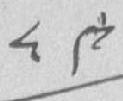༨༩
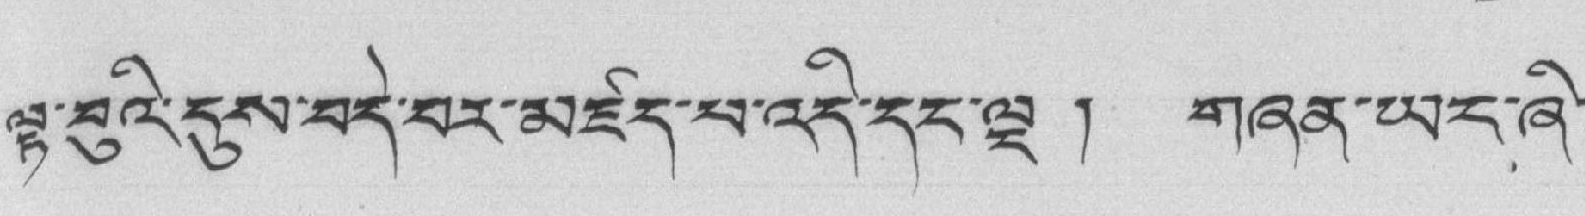ལྟ་བུའི་དུས་བདེ་བར་མཛད་པ་འདི་དང་ལྔ ། གཞན་ཡང་ཞི་
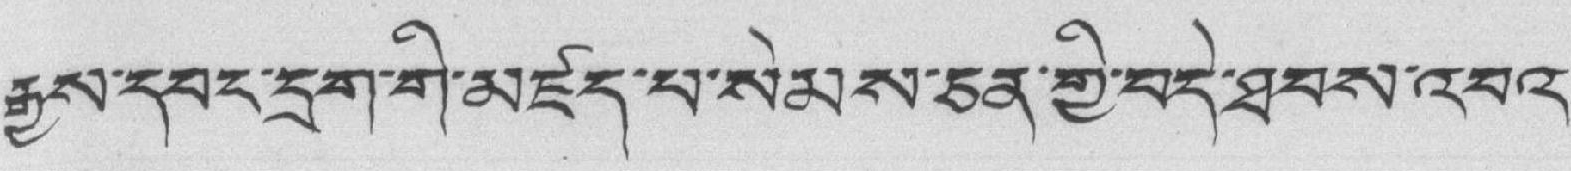རྒྱས་དབང་དྲག་གི་མཛད་པ་སེམས་ཅན་གྱི་བདེ་ཐབས་འབའ་
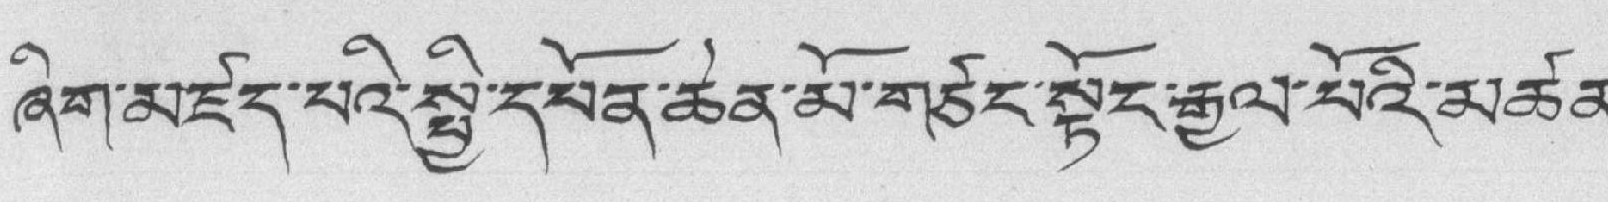ཞིག་མཛད་པའི་སྤྱི་དཔོན་ཆེན་མོ་གཙང་སྟོང་རྒྱལ་པོའི་མཚན་
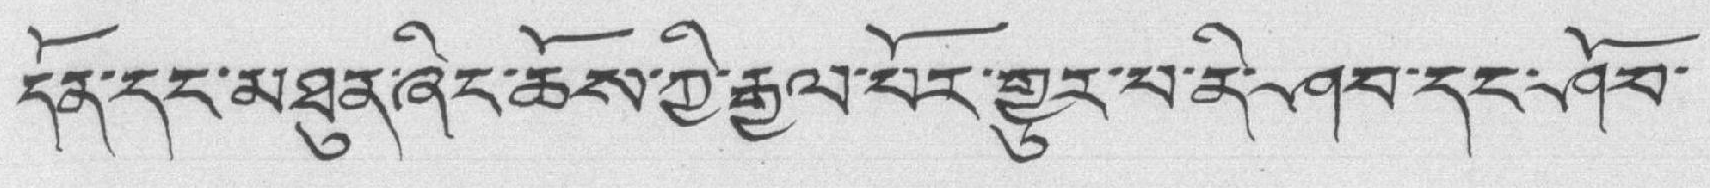དོན་དང་མཐུན་ཞིང་ཆོས་ཀྱི་རྒྱལ་པོར་གྱུར་བ་ནི་ཤབ་དང་ཤོབ་
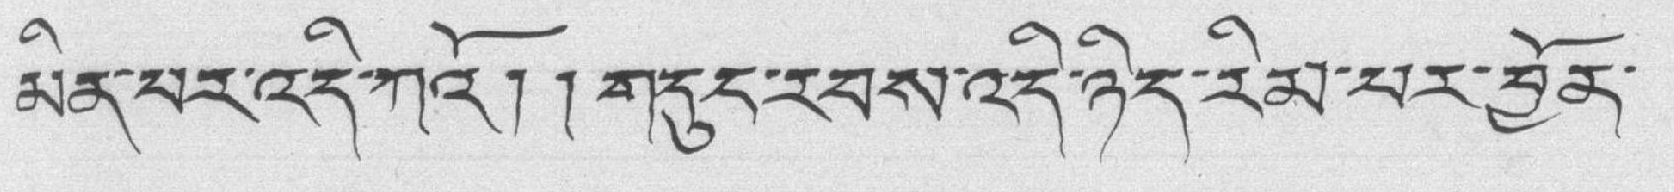མིན་པར་འདི་ཀའོ། ། གདུང་རབས་འདི་ཉིད་རིམ་པར་བྱོན་
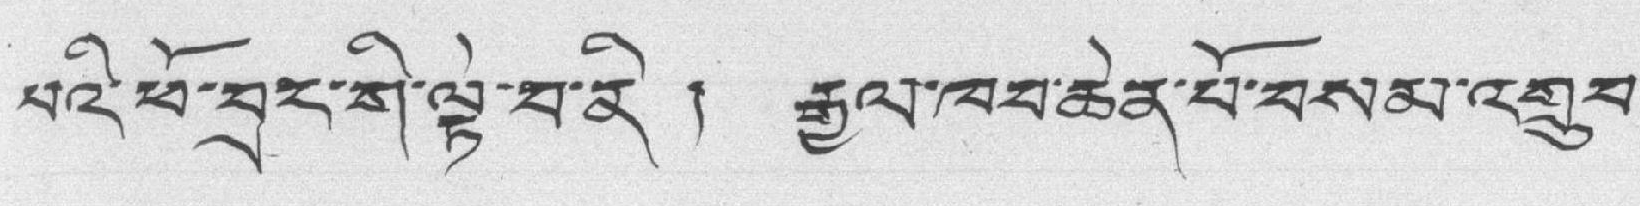པའི་ཕོ་བྲང་གི་ལྟེ་བ་ནི ། རྒྱལ་ཁབ་ཆེན་པོ་བསམ་འགྲུབ་
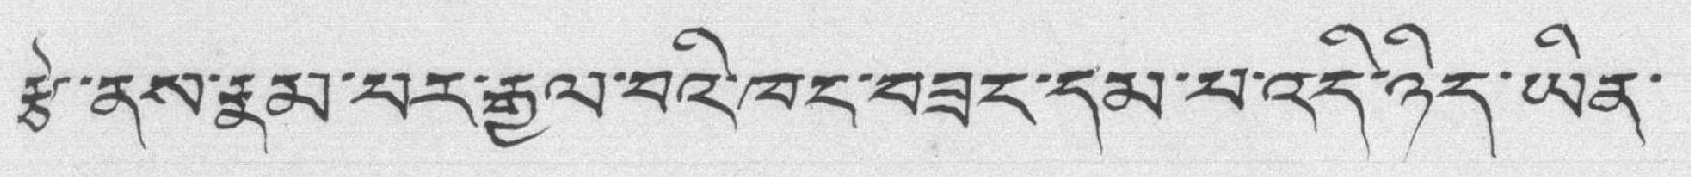རྩེ་ནས་རྣམ་པར་རྒྱལ་བའི་ཁང་བཟང་དམ་པ་འདི་ཉིད་ཡིན་
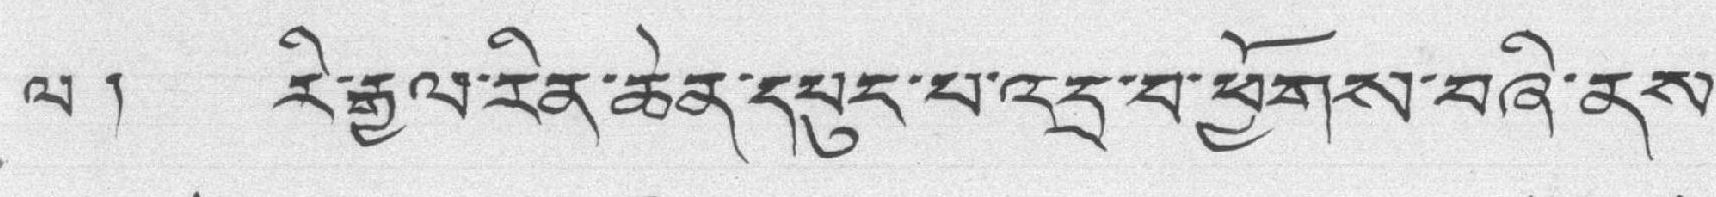ལ ། རི་རྒྱལ་རིན་ཆེན་དཔུང་པ་འདྲ་བ་ཕྱོགས་བཞི་ནས་
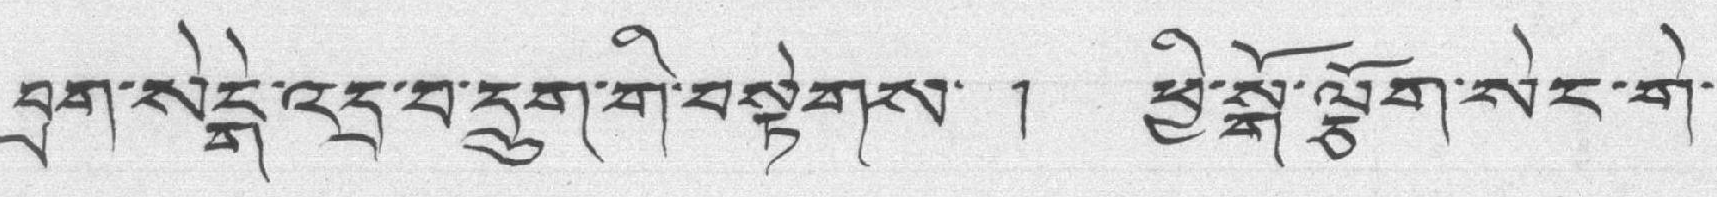བྲག་སེངྒེ་འདྲ་བ་དྲུག་གི་བསྟེགས་ ། ཕྱི་སྒོ་ལྕོག་སེང་གེ་
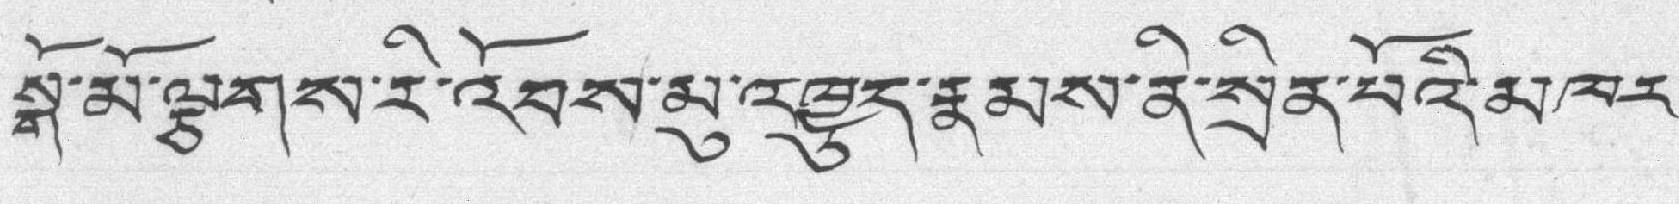སྒོ་མོ་ལྕགས་རི་འོབས་མུ་འཁྱུད་རྣམས་ནི་སྲིན་པོའི་མཁར་
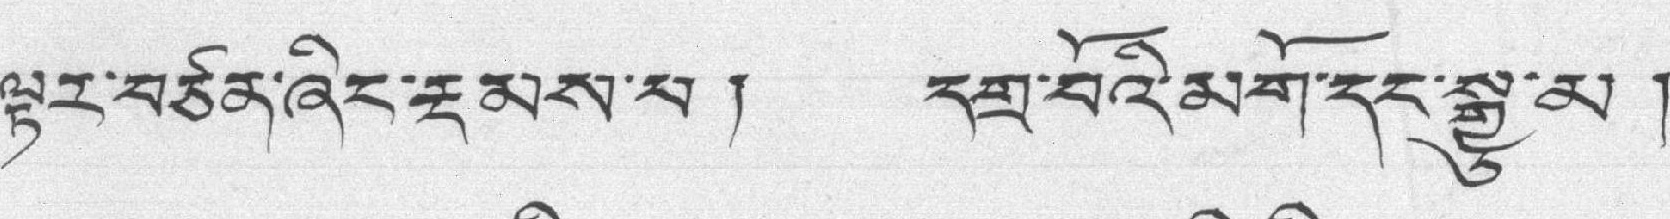ལྟར་བཙན་ཞིང་རྔམས་པ། དགྲ་བོའི་མགོ་དང་སྒྱུ་མ །
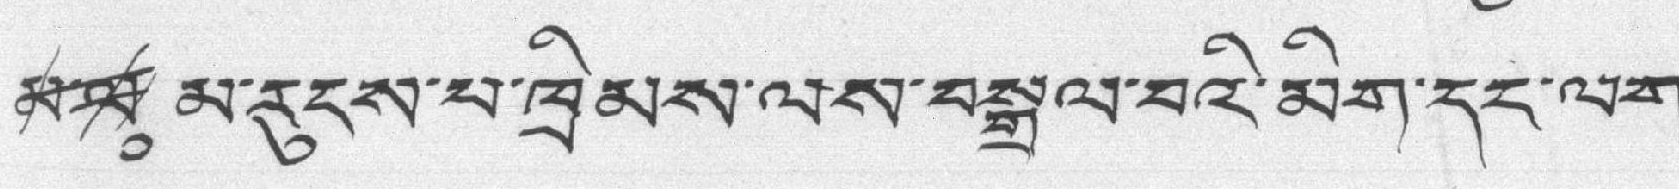མ་ལ༷ མ་རུངས་པ་ཁྲིམས་ལས་བསྒྲལ་བའི་མིག་དང་ལག་
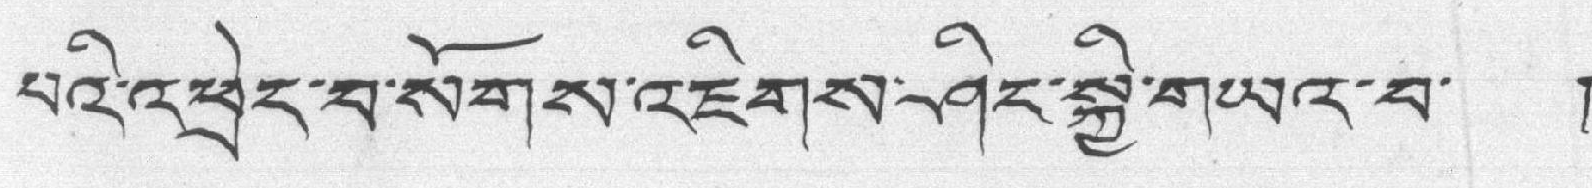པའི་འཕྲེང་བ་སོགས་འཇིགས་ཤིང་སྐྱི་གཡར་བ་ །
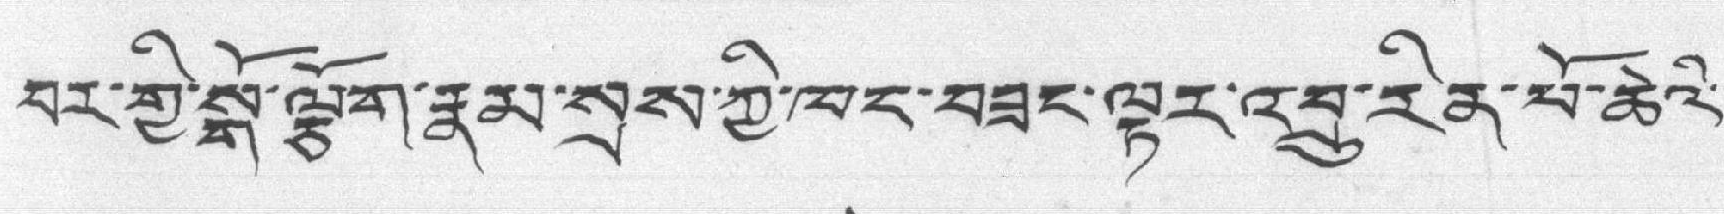བར་གྱི་སྒོ་ལྕོག་རྣམ་སྲས་ཀྱི་ཁང་བཟང་ལྟར་འབྲུ་རིན་པོ་ཆེའི་
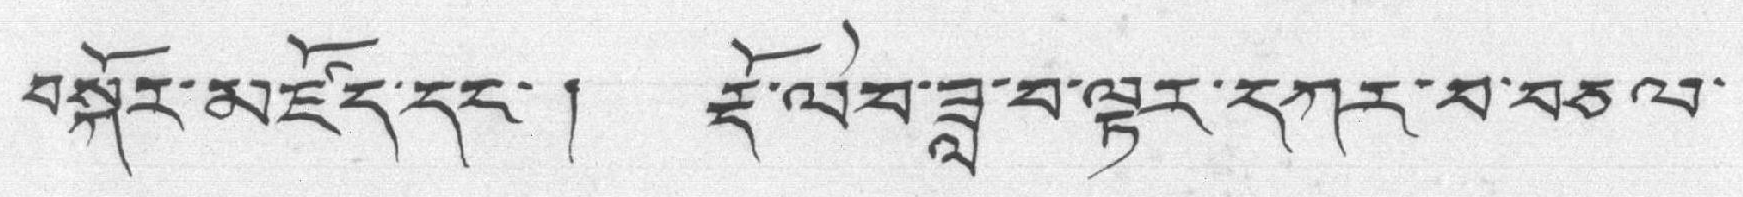བསྐོར་མཛོད་དང་། རྡོ་ལེབ་ཟླ་བ་ལྟར་དཀར་བ་བཅལ་
